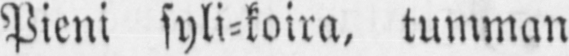Kadonnut. Pieni syli-koira, tumman
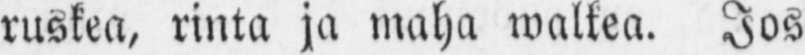ruskea, rinta ja maha walkea. Jos
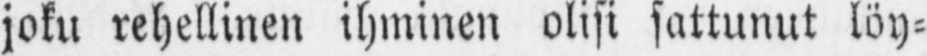joku rehellinen ihminen olisi sattunut löy-
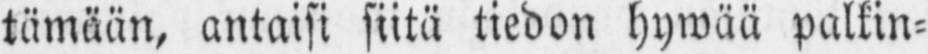tämään, antaisi siitä tiedon hywää palkin-
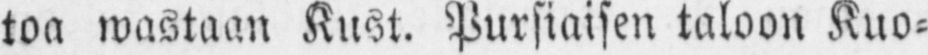toa wastaan Kust. Pursiaisen taloon Kuo-
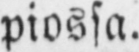piossa.
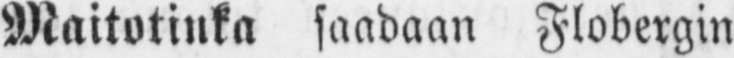Maitotinka saadaan Flobergin
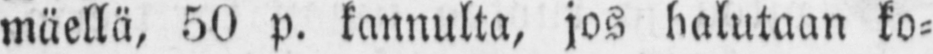mäellä, 50 p. kannulta, jos halutaan ko-
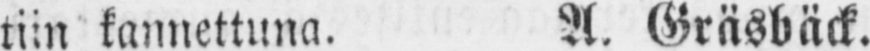tiin kannettuna. A. Gräsbäck.
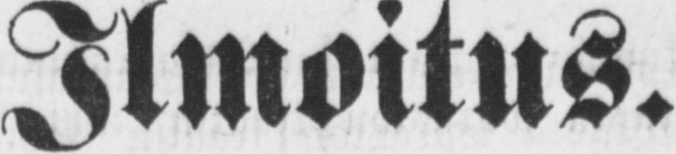Ilmoitus.
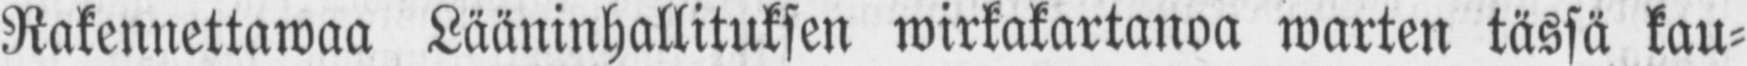Rakennettawaa Lääninhallituksen wirkakartanoa warten tässä kau-
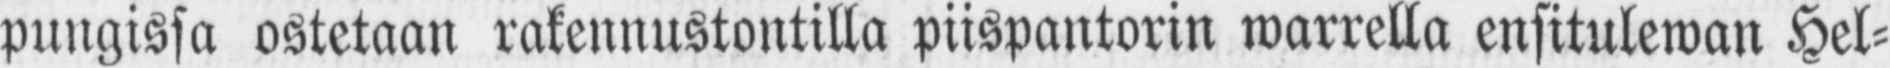pungissa ostetaan rakennustontilla piispantorin warrella ensitulewan Hel-
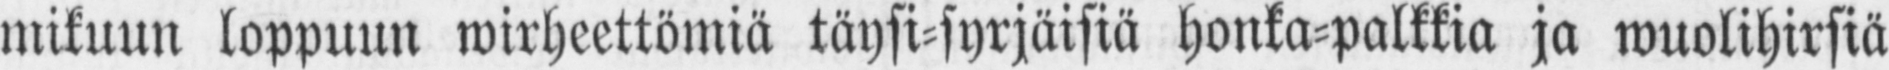mikuun loppuun wirheettömiä täysi-syrjäisiä honka-palkkia ja wuolihirsiä
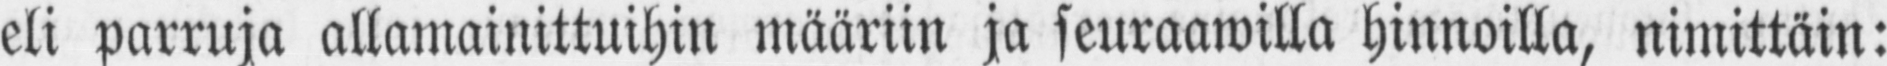eli parruja allamainittuihin määriin ja seuraawilla hinnoilla, nimittäin:
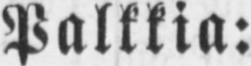Palkkia:
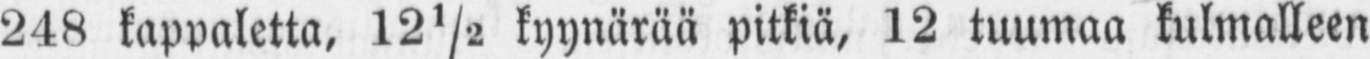248 kappaletta, 12½ kyynärää pitkiä, 12 tuumaa kulmalleen —
